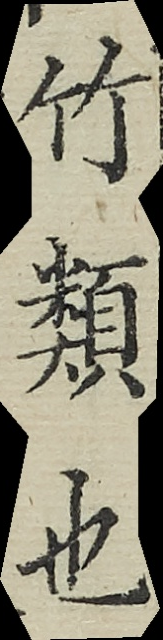竹類也
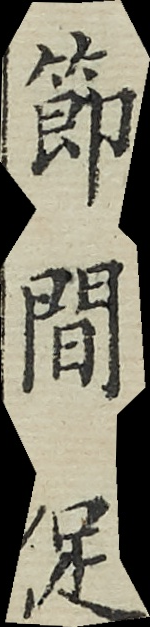節間促
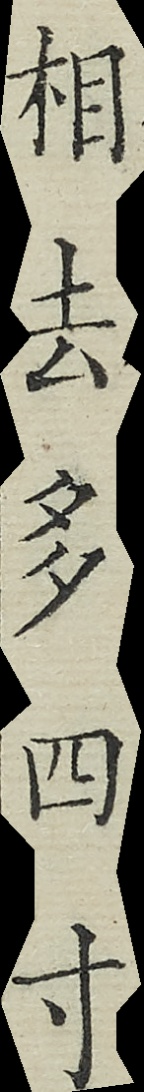相去多四寸
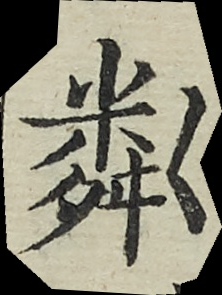粼
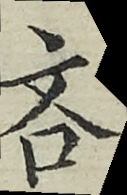音
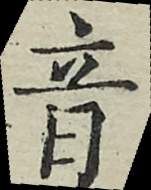吝
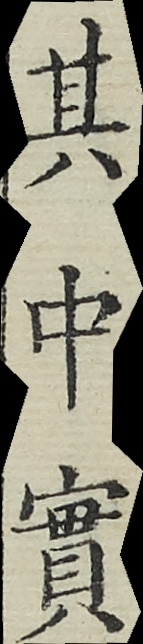其中實
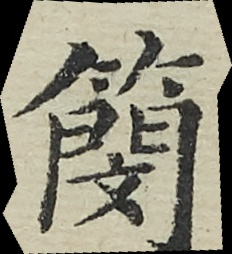簢
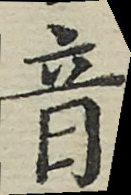音
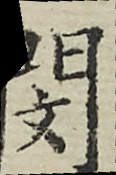閔
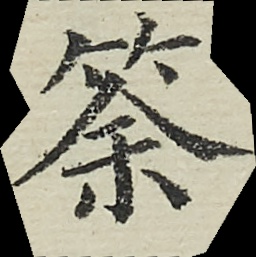筡
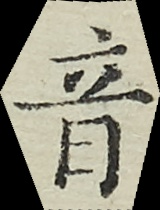音
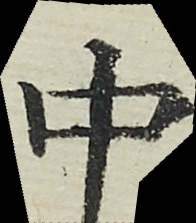中
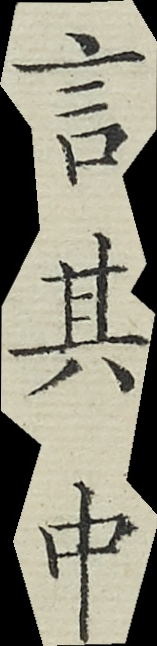言其中
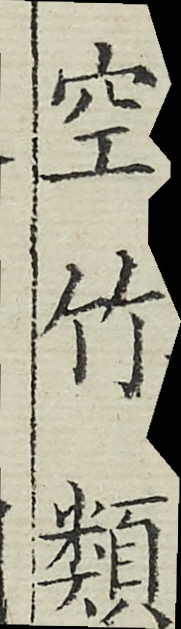空竹類
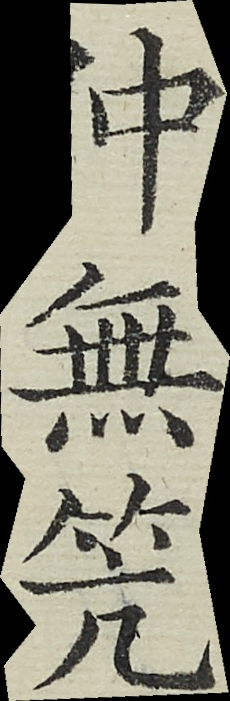仲無笐
